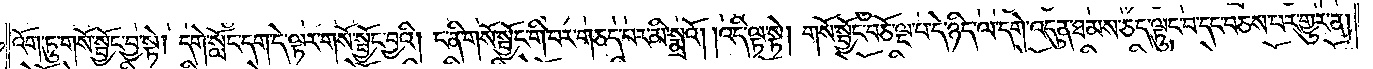འོག་ཏུ་གསོ་སྦྱོང་བྱ་སྟེ། དགེ་སློང་དག་དེ་ལྟར་གསོ་སྦྱོང་བྱའི། ང་ནི་གསོ་སྦྱོང་གི་བར་གཅད་པར་མི་སྨྲའོ། །འདི་ལྟ་སྟེ། གསོ་སྦྱོང་བཅོ་ལྔ་པ་དེ་ཉིད་ལ་དགེ་འདུན་ཐམས་ཅད་ལྟུང་བ་དང་བཅས་པར་གྱུར་ན།
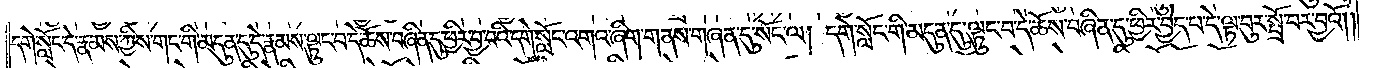དགེ་སློང་དེ་རྣམས་ཀྱིས་གང་གི་མདུན་དུ་དེ་རྣམས་ལྟུང་བ་དེ་ཆོས་བཞིན་དུ་ཕྱིར་བྱ་བའི་དགེ་སློང་འགའ་ཞིག་གནས་གཞན་དུ་སོང་ལ། དགེ་སློང་གི་མདུན་དུ་ལྟུང་བ་དེ་ཆོས་བཞིན་དུ་ཕྱིར་བྱེད་པ་དེ་ལྟ་བུར་སྤྲོ་བར་བྱའོ༎
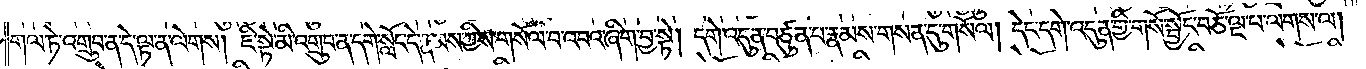གལ་ཏེ་འགྲུབ་ན་དེ་ལྟ་ན་ལེགས། ཇི་སྟེ་མི་འགྲུབ་ན་དགེ་སློང་དེ་རྣམས་ཀྱིས་གསོལ་བ་འབའ་ཞིག་བྱ་སྟེ། དགེ་འདུན་བཙུན་པ་རྣམས་གསན་དུ་གསོལ། དེང་དགེ་འདུན་གྱི་གསོ་སྦྱོང་བཅོ་ལྔ་པ་ལགས་ལ།
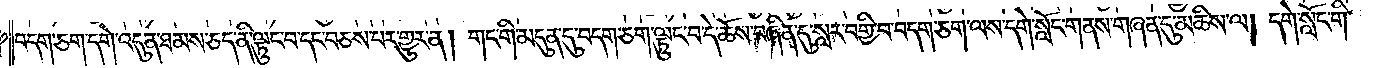བདག་ཅག་དགེ་འདུན་ཐམས་ཅད་ནི་ལྟུང་བ་དང་བཅས་པར་གྱུར་ན། གང་གི་མདུན་དུ་བདག་ཅག་ལྟུང་བ་དེ་ཆོས་བཞིན་དུ་སླར་བགྱི་བ་བདག་ཅག་ལས་དགེ་སློང་གནས་གཞན་དུ་མཆིས་ལ། དགེ་སློང་གི་
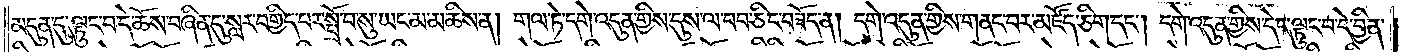མདུན་དུ་ལྟུང་བ་དེ་ཆོས་བཞིན་དུ་སླར་བགྱིད་པར་སྤྲོ་བ་སུ་ཡང་མ་མཆིས་ན། གལ་ཏེ་དགེ་འདུན་གྱིས་དུས་ལ་བབ་ཅིང་བཟོད་ན། དགེ་འདུན་གྱིས་གནང་བར་མཛོད་ཅིག་དང༌། དགེ་འདུན་གྱིས་དེང་ལྟུང་བ་དེ་བྱིན་
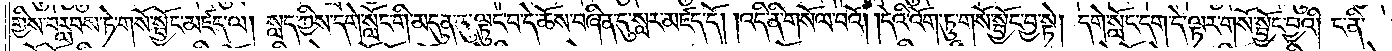གྱིས་བརླབས་ཏེ་གསོ་སྦྱོང་མཛད་ལ། སླད་ཀྱིས་དགེ་སློང་གི་མདུན་དུ་ལྟུང་བ་དེ་ཆོས་བཞིན་དུ་སླར་མཛད་དོ། །འདི་ནི་གསོལ་བའོ། །དེའི་འོག་ཏུ་གསོ་སྦྱོང་བྱ་སྟེ། དགེ་སློང་དག་དེ་ལྟར་གསོ་སྦྱོང་བྱའི། ང་ནི་
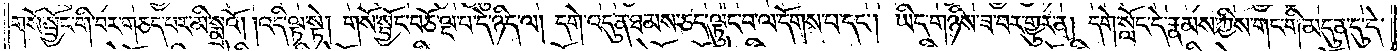གསོ་སྦྱོང་གི་བར་གཅད་པར་མི་སྨྲའོ། །འདི་ལྟ་སྟེ། གསོ་སྦྱོང་བཅོ་ལྔ་པ་དེ་ཉིད་ལ། དགེ་འདུན་ཐམས་ཅད་ལྟུང་བ་ལ་དོགས་པ་དང༌། ཡིད་གཉིས་ཟ་བར་གྱུར་ན། དགེ་སློང་དེ་རྣམས་ཀྱིས་གང་གི་མདུན་དུ་དེ་
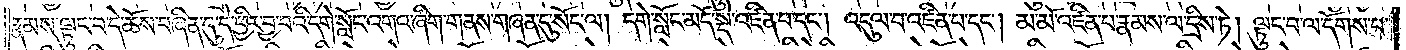རྣམས་ལྟུང་བ་དེ་ཆོས་བཞིན་དུ་དེ་ཕྱིར་བྱ་བའི་དགེ་སློང་འགའ་ཞིག་གནས་གཞན་དུ་སོང་ལ། དགེ་སློང་མདོ་སྡེ་འཛིན་པ་དང༌། འདུལ་བ་འཛིན་པ་དང༌། མ་མོ་འཛིན་པ་རྣམས་ལ་དྲིས་ཏེ། ལྟུང་བ་ལ་དོགས་པ་
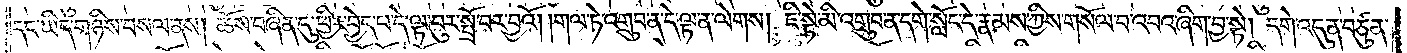དང་ཡིད་གཉིས་བསལ་ནས། ཆོས་བཞིན་དུ་ཕྱིར་བྱེད་པ་དེ་ལྟ་བུར་སྤྲོ་བར་བྱའོ། །གལ་ཏེ་འགྲུབ་ན་དེ་ལྟ་ན་ལེགས། ཇི་སྟེ་མི་འགྲུབ་ན་དགེ་སློང་དེ་རྣམས་ཀྱིས་གསོལ་བ་འབའ་ཞིག་བྱ་སྟེ། དགེ་འདུན་བཙུན་
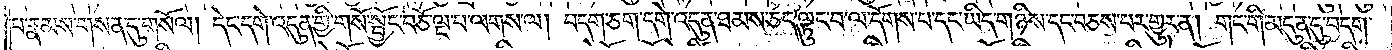པ་རྣམས་གསན་དུ་གསོལ། དེང་དགེ་འདུན་གྱི་གསོ་སྦྱོང་བཅོ་ལྔ་པ་ལགས་ལ། བདག་ཅག་དགེ་འདུན་ཐམས་ཅད་ལྟུང་བ་ལ་དོགས་པ་དང་ཡིད་གཉིས་དང་བཅས་པར་གྱུར་ན། གང་གི་མདུན་དུ་བདག་
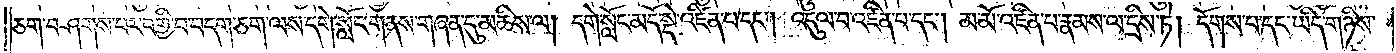ཅག་བཤགས་པར་བགྱི་བ་བདག་ཅག་ལས་དགེ་སློང་གནས་གཞན་དུ་མཆིས་ལ། དགེ་སློང་མདོ་སྡེ་འཛིན་པ་དང༌། འདུལ་བ་འཛིན་པ་དང༌། མ་མོ་འཛིན་པ་རྣམས་ལ་དྲིས་ཏེ། དོགས་པ་དང་ཡིད་གཉིས་
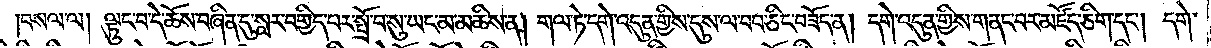བསལ་ལ། ལྟུང་བ་དེ་ཆོས་བཞིན་དུ་སླར་བགྱིད་པར་སྤྲོ་བ་སུ་ཡང་མ་མཆིས་ན། གལ་ཏེ་དགེ་འདུན་གྱིས་དུས་ལ་བབ་ཅིང་བཟོད་ན། དགེ་འདུན་གྱིས་གནང་བར་མཛོད་ཅིག་དང༌། དགེ་
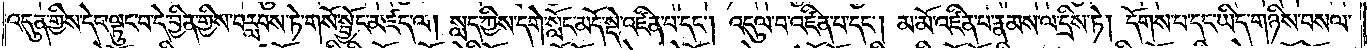འདུན་གྱིས་དེང་ལྟུང་བ་དེ་བྱིན་གྱིས་བརླབས་ཏེ་གསོ་སྦྱོང་མཛད་ལ། སླད་ཀྱིས་དགེ་སློང་མདོ་སྡེ་འཛིན་པ་དང༌། འདུལ་བ་འཛིན་པ་དང༌། མ་མོ་འཛིན་པ་རྣམས་ལ་དྲིས་ཏེ། དོགས་པ་དང་ཡིད་གཉིས་བསལ་
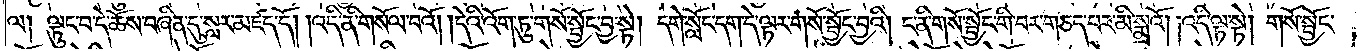ལ། ལྟུང་བ་དེ་ཆོས་བཞིན་དུ་སླར་མཛད་དོ། །འདི་ནི་གསོལ་བའོ། །དེའི་འོག་ཏུ་གསོ་སྦྱོང་བྱ་སྟེ། དགེ་སློང་དག་དེ་ལྟར་གསོ་སྦྱོང་བྱའི། ང་ནི་གསོ་སྦྱོང་གི་བར་གཅད་པར་མི་སྨྲའོ། །འདི་ལྟ་སྟེ། གསོ་སྦྱོང་
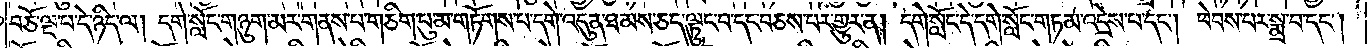བཅོ་ལྔ་པ་དེ་ཉིད་ལ། དགེ་སློང་གཉུག་མར་གནས་པ་གཅིག་པུ་མ་གཏོགས་པ་དགེ་འདུན་ཐམས་ཅད་ལྟུང་བ་དང་བཅས་པར་གྱུར་ན། དགེ་སློང་དེ་དགེ་སློང་གཏམ་འདྲེས་པ་དང༌། ཕེབས་པར་སྨྲ་བ་དང༌།
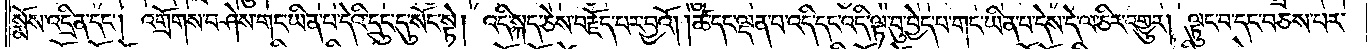སྨོས་འདྲིན་དང༌། འགྲོགས་བཤེས་གང་ཡིན་པ་དེའི་དྲུང་དུ་སོང་སྟེ། འདི་སྐད་ཅེས་བརྗོད་པར་བྱའོ། །ཚེ་དང་ལྡན་པ་འདི་དང་འདི་ལྟ་བུ་བྱེད་པ་གང་ཡིན་པ་དེས་དེ་ལ་ཅིར་འགྱུར། ལྟུང་བ་དང་བཅས་པར་
